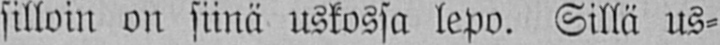silloin on siinä uskossa lepo. Sillä us-
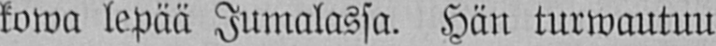kowa lepää Jumalassa. Hän turwautuu
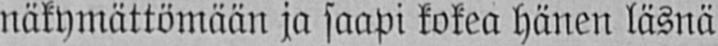näkymättömään ja saapi kokea hänen läsnä
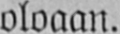oloaan.
